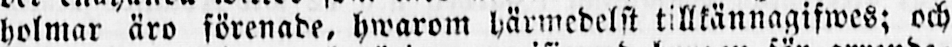holmar äro förenade, hwarom härmedelst tillkännagifwes; och
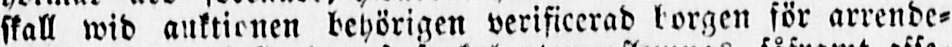skall wid auktionen behörigen verificerad borgen för arrende-
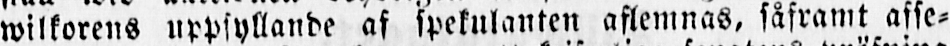wilkorens uppfyllande af spekulanten aflemnas, såframt afse-
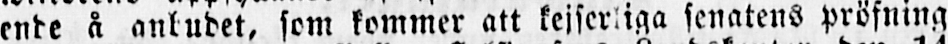ende å anbudet, som kommer att kejserliga senatens pröfning
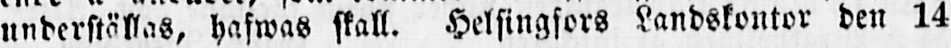underställas, hafwas skall. Helsingfors Landskontor den 14
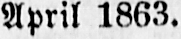April 1863.
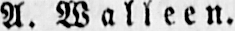A. Walleen.
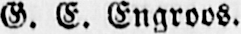G. E. Engroos.
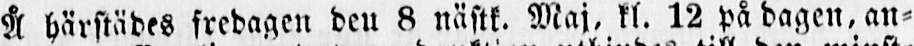Å härstädes fredagen den 8 nästk. Maj, kl. 12 på dagen, an-
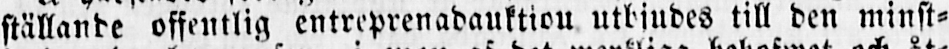ställande offentlig entreprenadauktion utbjudes till den minst-
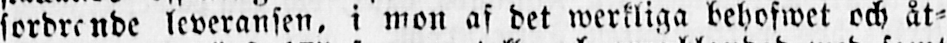fordrande leveransen, i mon af det werkliga behofwet och åt-
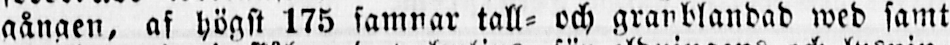gången, af högst 175 famnar tall- och granblandad wed samt
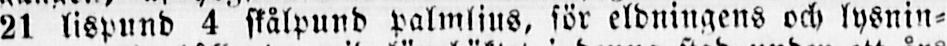21 lispund 4 skålpund palmljus, för eldningens och lysnin-
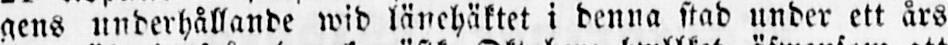gens underhållande wid länehäktet i denna stad under ett års
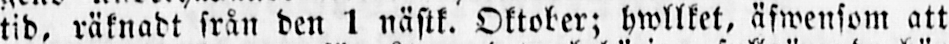tid, räknadt från den 1 nästk. Oktober; hwllket, äfwensom att
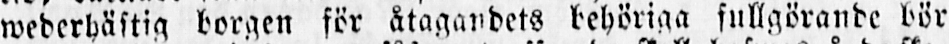wederhäftig borgen för åtagandets behöriga fullgörande bör
